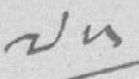༧༥
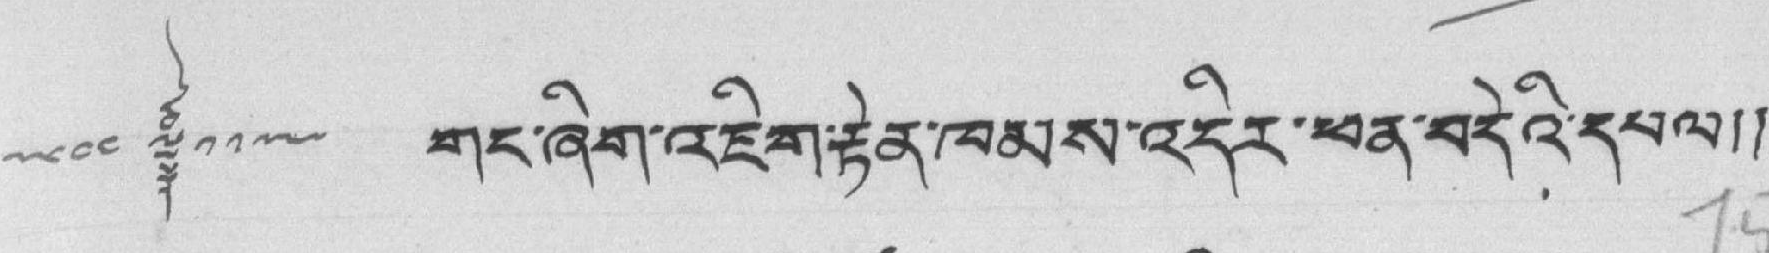༒ གང་ཞིག་འཇིག་རྟེན་ཁམས་འདིར་ཕན་བདེའི་དཔལ།།
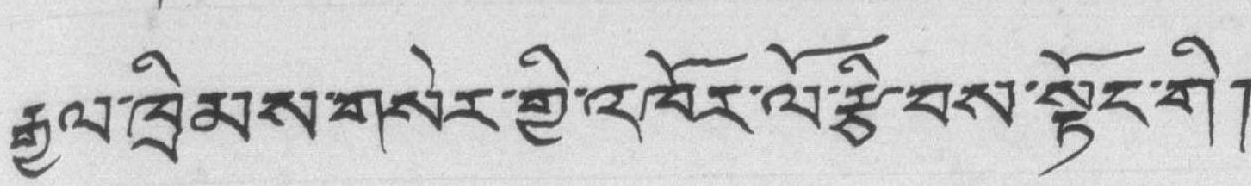རྒྱལ་ཁྲིམས་གསེར་གྱི་འཁོར་ལོ་རྩིབས་སྟོང་གི།
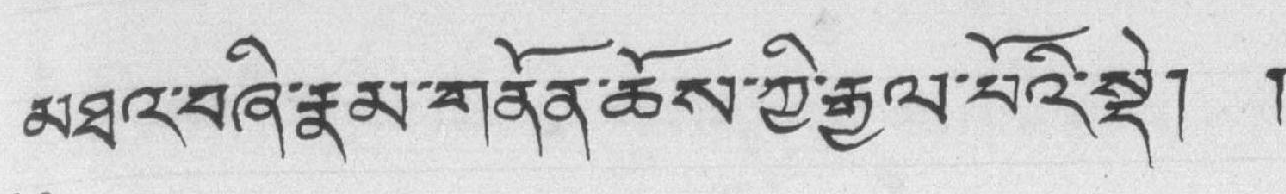མཐའ་བཞི་རྣམ་གནོན་ཆོས་ཀྱི་རྒྱལ་པོའི་སྡེ། །
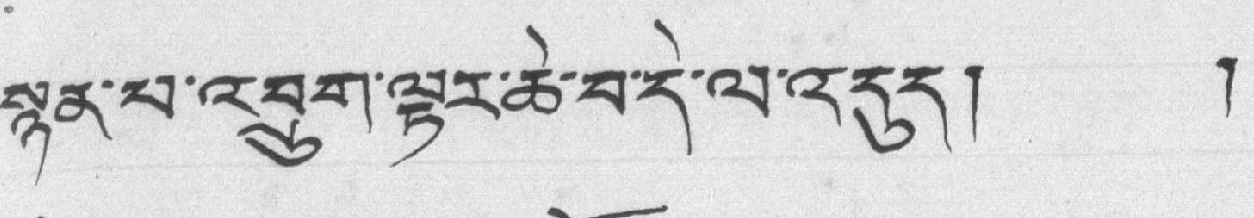སྙན་པ་འབྲུག་ལྟར་ཆེ་བ་དེ་ལ་འདུད། །
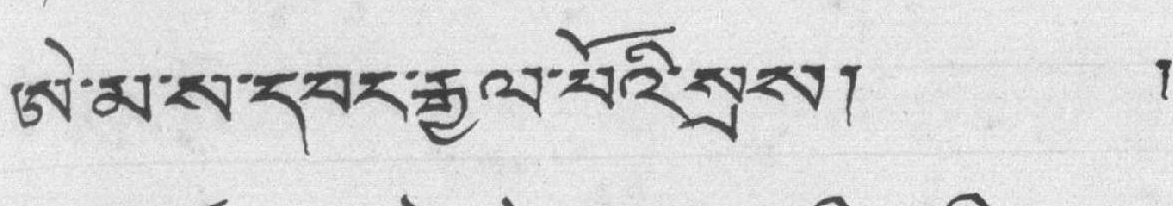ཨེ་མ་ས་དབང་རྒྱལ་པོའི་སྲས། །
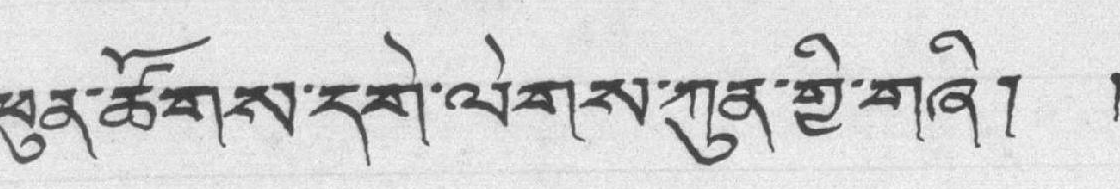ཕུན་ཚོགས་དགེ་ལེགས་ཀུན་གྱི་གཞི། །
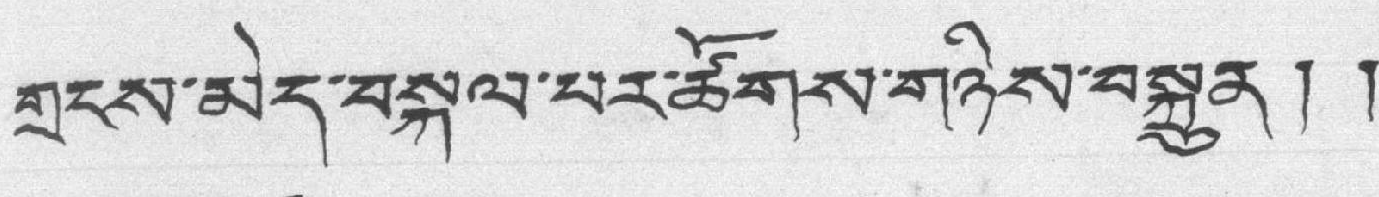གྲངས་མེད་བསྐལ་པར་ཚོགས་གཉིས་བསྐྲུན། །
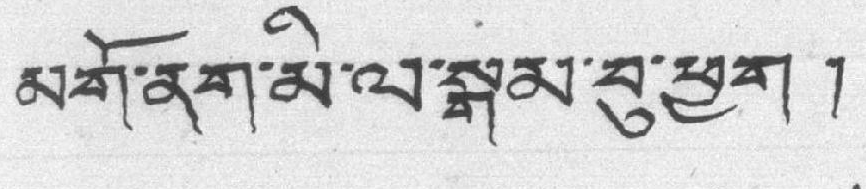མགོ་ནག་མི་ལ་སྒམ་བུ་ཕྱག །
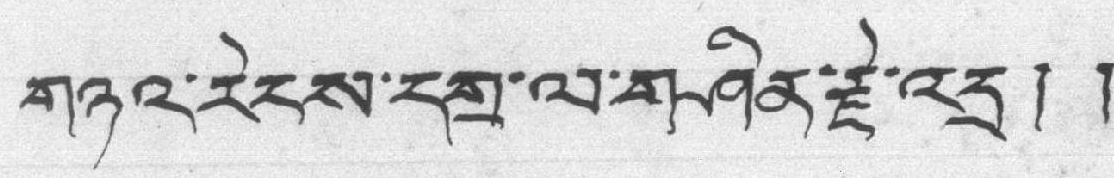གཉའ་རེངས་དགྲ་ལ་གཤིན་རྫེ་འདྲ། །
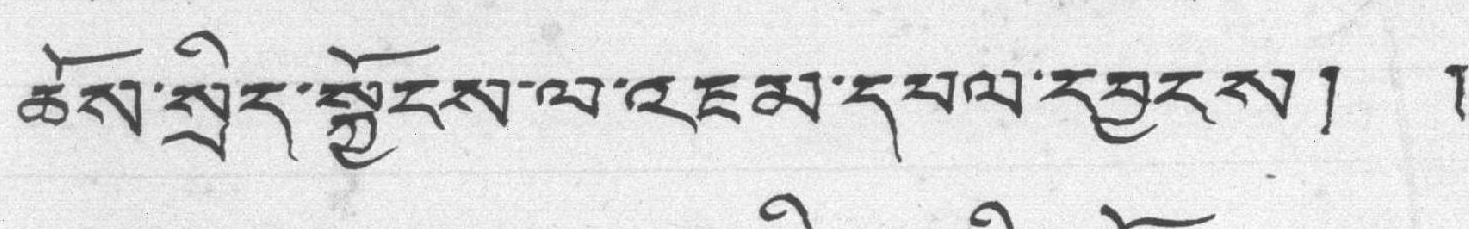ཆོས་སྲིད་སྐྱོངས་ལ་འཇམ་དཔལ་དབྱངས། །
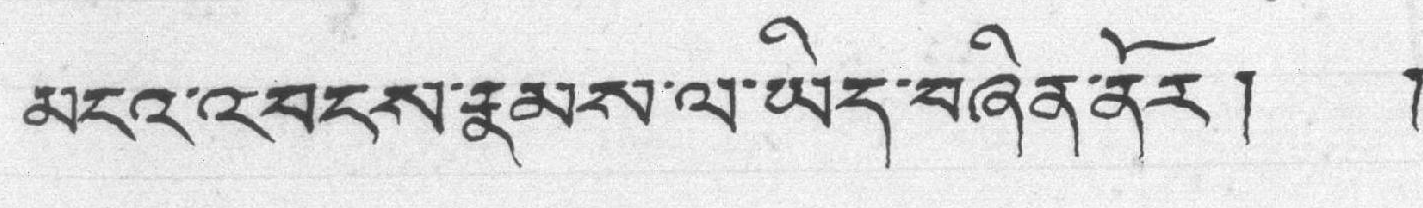མངའ་འབངས་རྣམསས་ལ་ཡིད་བཞིན་ནོར། །
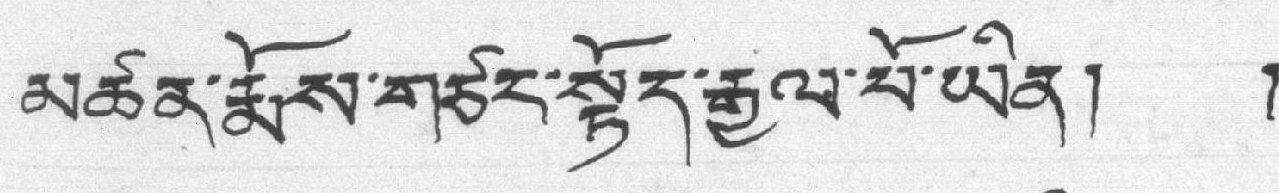མཚན་རྨོས་གཙང་སྟོད་རྒྱལ་པོ་ཡིན། །
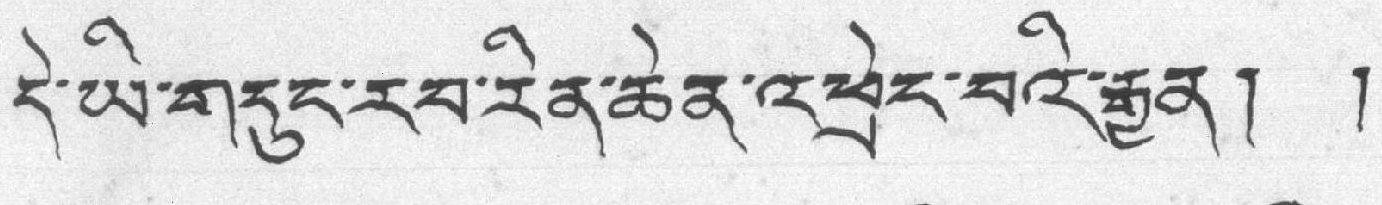དེ་ཡི་གདུང་རབ་རིན་ཆེན་འཕྲེང་བའི་རྒྱན། །
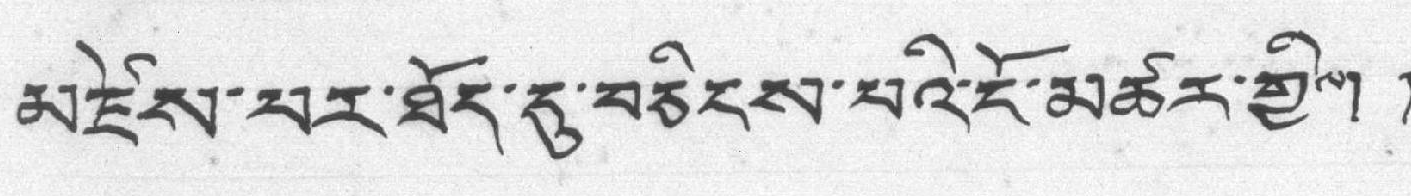མཛེས་པར་ཐོད་དུ་བཅིངས་པའི་ངོ་མཚར་གྱིས། །
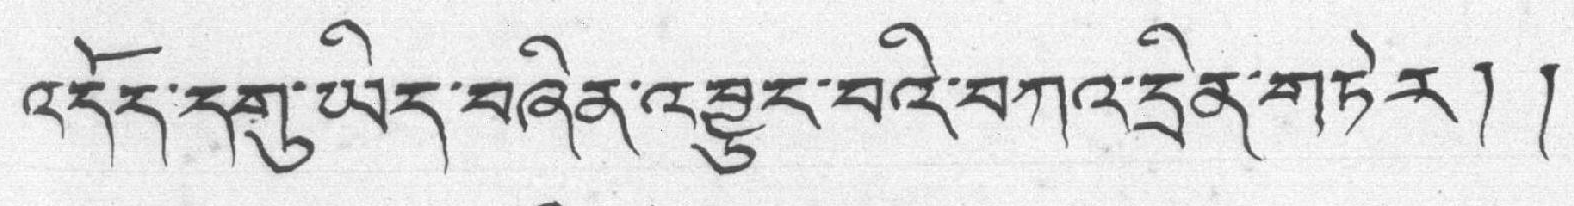འདོད་དགུ་ཡིད་བཞིན་འབྱུང་བའི་བཀའ་དྲིན་གཏེར། །
